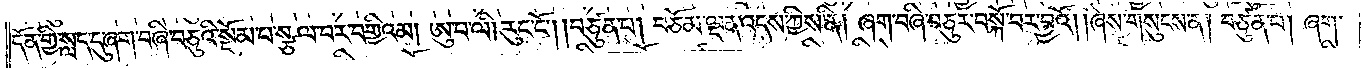དོན་གྱི་སླད་དུ་ཞག་བཞི་བཅུའི་སྡོམ་པ་སྩལ་བར་བགྱིའམ། ཨུ་པ་ལི། རུང་ངོ༌། །བཙུན་པ། བཅོམ་ལྡན་འདས་ཀྱིས་ནི། །ཞག་བཞི་བཅུར་བསྐོ་བར་བྱའོ། །ཞེས་གསུངས་ན། བཙུན་པ། ཞག་
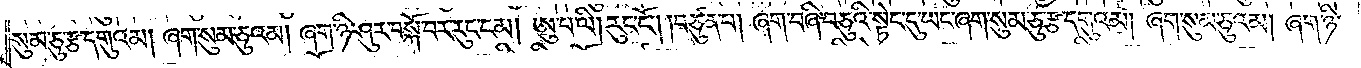སུམ་ཅུ་རྩ་དགུའམ། ཞག་སུམ་ཅུའམ། ཞག་ཉི་ཤུར་བསྐོ་བར་རུང་ངམ། ཨུ་པ་ལི། རུང་ངོ༌། །བཙུན་པ། ཞག་བཞི་བཅུའི་སྟེང་དུ་ཡང་ཞག་སུམ་ཅུ་རྩ་དགུའམ། ཞག་སུམ་ཅུའམ། ཞག་ཉི་
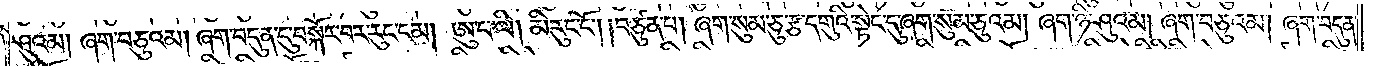ཤུའམ། ཞག་བཅུའམ། ཞག་བདུན་དུ་བསྐོར་བར་རུང་ངམ། ཨུ་པ་ལི། མི་རུང་ངོ༌། །བཙུན་པ། ཞག་སུམ་ཅུ་རྩ་དགུའི་སྟེང་དུ་ཞག་སུམ་ཅུའམ། ཞག་ཉི་ཤུའམ། ཞག་བཅུའམ། ཞག་བདུན་
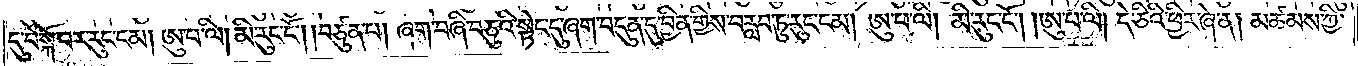དུ་བསྐོ་བར་རུང་ངམ། ཨུ་པ་ལི། མི་རུང་ངོ༌། །བཙུན་པ། ཞག་བཞི་བཅུའི་སྟེང་དུ་ཞག་བདུན་དུ་བྱིན་གྱིས་བརླབ་ཏུ་རུང་ངམ། ཨུ་པ་ལི། མི་རུང་ངོ༌། །ཨུ་པ་ལི། དེ་ཅིའི་ཕྱིར་ཞེ་ན། མཚམས་ཀྱི་
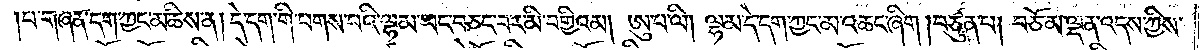།པ་གཞན་དག་ཀྱང་མཆིས་ན། དེ་དག་གི་པགས་པའི་ལྷམ་ཡང་བཅང་བར་མི་བགྱིའམ། ཨུ་པ་ལི། ལྷམ་དེ་དག་ཀྱང་མ་འཆང་ཞིག །བཙུན་པ། བཅོམ་ལྡན་འདས་ཀྱིས་
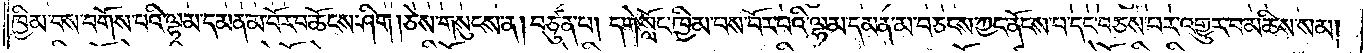ཁྱིམ་པས་བགོས་པའི་ལྷམ་དམན་མ་བོར་བ་ཆོངས་ཤིག །ཅེས་གསུངས་ན། བཙུན་པ། དགེ་སློང་ཁྱིམ་པས་བོར་བའི་ལྷམ་དམན་མ་བཅངས་ཀྱང་ནོངས་པ་དང་བཅས་པར་འགྱུར་བ་མཆིས་སམ།
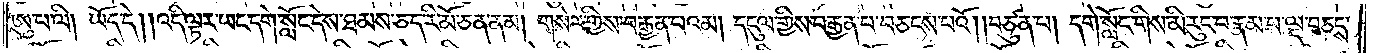ཨུ་པ་ལི། ཡོད་དེ། །འདི་ལྟར་ཡང་དགེ་སློང་དེས་ཐམས་ཅད་རི་མོ་ཅན་ནམ། གསེར་གྱིས་བརྒྱན་པའམ། དངུལ་གྱིས་བརྒྱན་པ་བཅངས་པའོ། །བཙུན་པ། དགེ་སློང་གིས་མི་རུང་བ་རྣམ་པ་ལྔ་བཅངས་
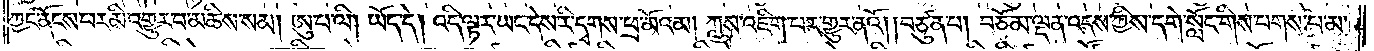ཀྱང་ནོངས་པར་མི་འགྱུར་བ་མཆིས་སམ། ཨུ་པ་ལི། ཡོད་དེ། འདི་ལྟར་ཡང་དེས་རི་དྭགས་ཕྲ་མོའམ། ཀླུས་འཇིག་པར་གྱུར་ནའོ། །བཙུན་པ། བཅོམ་ལྡན་འདས་ཀྱིས་དགེ་སློང་གིས་པགས་པ་མ་
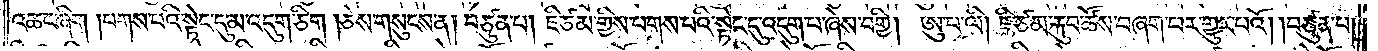འཆང་ཞིག །པགས་པའི་སྟེང་དུ་མ་འདུག་ཅིག །ཅེས་གསུངས་ན། བཙུན་པ། ཇི་ཙམ་གྱིས་པགས་པའི་སྟེང་དུ་འདུག་པ་ཞེས་བགྱི། ཨུ་པ་ལི། ཇི་ཙམ་རྐུབ་ཚོས་བཞག་པར་གྱུར་པའོ། །བཙུན་པ།
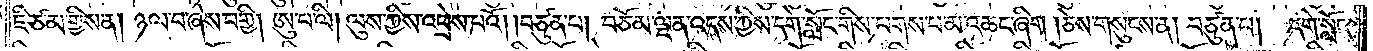ཇི་ཙམ་གྱིས་ན། ཉལ་བ་ཞེས་བགྱི། ཨུ་པ་ལི། ལུས་ཀྱིས་འཕྲེས་པའོ། །བཙུན་པ། བཅོམ་ལྡན་འདས་ཀྱིས་དགེ་སློང་གིས་པགས་པ་མ་འཆང་ཞིག །ཅེས་གསུངས་ན། བཙུན་པ། དགེ་སློང་
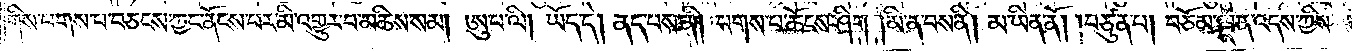གིས་པགས་པ་བཅངས་ཀྱང་ནོངས་པར་མི་འགྱུར་བ་མཆིས་སམ། ཨུ་པ་ལི། ཡོད་དེ། ནད་པས་ནི། པགས་པ་ཆོངས་ཤིག །མི་ན་བས་ནི། མ་ཡིན་ནོ། །བཙུན་པ། བཅོམ་ལྡན་འདས་ཀྱིས་
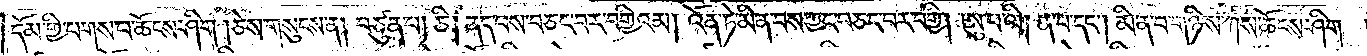དོམ་གྱི་པགས་པ་ཆོངས་ཤིག །ཅེས་གསུངས་ན། བཙུན་པ། ཅི། ནད་པས་བཅང་བར་བགྱིའམ། འོན་ཏེ་མི་ན་བས་ཀྱང་བཅང་བར་བགྱི། ཨུ་པ་ལི། ན་བ་དང༌། མི་ན་བ་གཉིས་ཀས་ཆོངས་ཤིག་
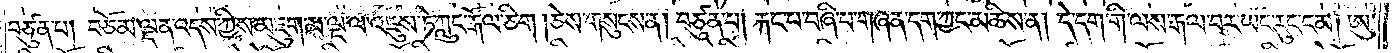བཙུན་པ། བཅོམ་ལྡན་འདས་ཀྱིས་མཇུག་མ་ལྔ་ལ་འཇུས་ཏེ་ཀླུང་རྒོལ་ཅིག །ཅེས་གསུངས་ན། བཙུན་པ། རྐང་པ་བཞི་པ་གཞན་དག་ཀྱང་མཆིས་ན། དེ་དག་གི་ལས་རྒལ་བར་ཡང་རུང་ངམ། ཨུ་
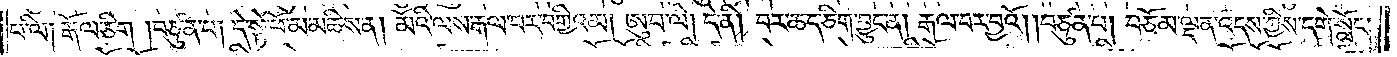པ་ལི། རྒོལ་ཅིག །བཙུན་པ། དེ་སྟེ་ཕོ་མ་མཆིས་ན། མོའི་ལས་རྒལ་བར་བགྱིའམ། ཨུ་པ་ལི། དེ་ནི། བར་ཆད་ཅིག་བྱུང་ན། རྒལ་བར་བྱའོ། །བཙུན་པ། བཅོམ་ལྡན་འདས་ཀྱིས་དགེ་སློང་
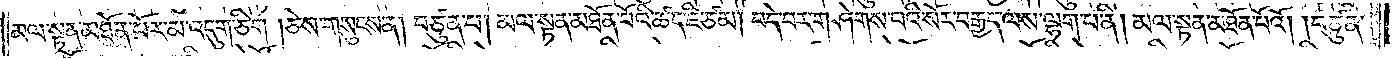མལ་སྟན་མཐོན་པོར་མ་འདུག་ཅིག །ཅེས་གསུངས་ན། བཙུན་པ། མལ་སྟན་མཐོན་པོའི་ཚད་ཇི་ཙམ། བདེ་བར་གཤེགས་པའི་སོར་བརྒྱད་ལས་ལྷག་པ་ནི། མལ་སྟན་མཐོན་པོའོ། །བཙུན་
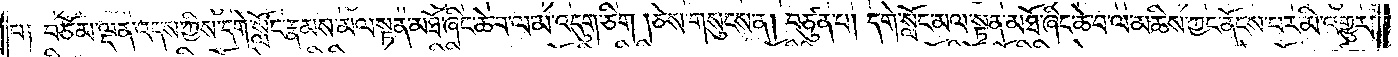པ༑ བཅོམ་ལྡན་འདས་ཀྱིས་དགེ་སློང་རྣམས་མལ་སྟན་མཐོ་ཞིང་ཆེ་བ་ལ་མ་འདུག་ཅིག །ཅེས་གསུངས་ན། བཙུན་པ། དགེ་སློང་མལ་སྟན་མཐོ་ཞིང་ཆེ་བ་ལ་མཆིས་ཀྱང་ནོངས་པར་མི་འགྱུར་
